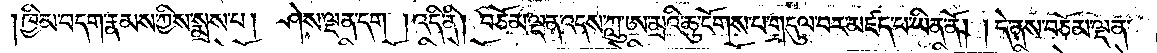ཁྱིམ་བདག་རྣམས་ཀྱིས་སྨྲས་པ། ཤེས་ལྡན་དག །འདི་ནི། བཅོམ་ལྡན་འདས་ཀླུ་ཨ་མྲའི་ཆུ་ངོགས་པ་གདུལ་བར་མཛད་པ་ཡིན་ནོ། །དེ་ནས་བཅོམ་ལྡན་
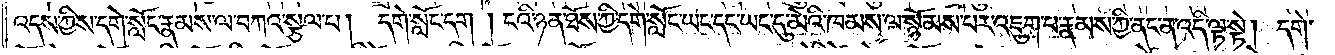འདས་ཀྱིས་དགེ་སློང་རྣམས་ལ་བཀའ་སྩལ་པ། དགེ་སློང་དག །ངའི་ཉན་ཐོས་ཀྱི་དགེ་སློང་ཡང་དང་ཡང་དུ་མེའི་ཁམས་ལ་སྙོམས་པར་འཇུག་པ་རྣམས་ཀྱི་ནང་ན་འདི་ལྟ་སྟེ། དགེ་
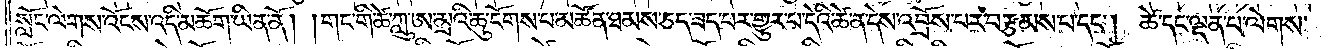སློང་ལེགས་འོངས་འདི་མཆོག་ཡིན་ནོ། །གང་གི་ཆེ་ཀླུ་ཨ་མྲའི་ཆུ་ངོགས་པ་མཚོན་ཐམས་ཅད་ཟད་པར་གྱུར་པ་དེའི་ཚེ་ན་དེས་འབྲོས་པར་བརྩམས་པ་དང༌། ཚེ་དང་ལྡན་པ་ལེགས་
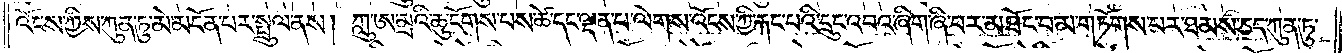འོངས་ཀྱིས་ཀུན་ཏུ་མེ་མངོན་པར་སྤྲུལ་ནས། ཀླུ་ཨ་མྲའི་ཆུ་ངོགས་པས་ཚེ་དང་ལྡན་པ་ལེགས་འོངས་ཀྱི་རྐང་པའི་དྲུང་འབའ་ཞིག་ཞི་བར་མཐོང་བ་མ་གཏོགས་པར་ཐམས་ཅད་ཀུན་ཏུ་
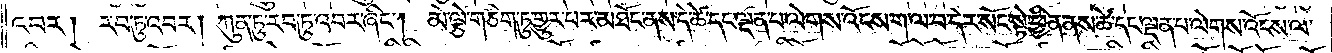འབར། རབ་ཏུ་འབར། ཀུན་ཏུ་རབ་ཏུ་འབར་ཞིང༌། མེ་ལྕེ་གཅིག་ཏུ་གྱུར་བར་མཐོང་ནས་དེ་ཚེ་དང་ལྡན་པ་ལེགས་འོངས་ག་ལ་བ་དེར་སོང་སྟེ་ཕྱིན་ནས་ཚེ་དང་ལྡན་པ་ལེགས་འོངས་ལ་
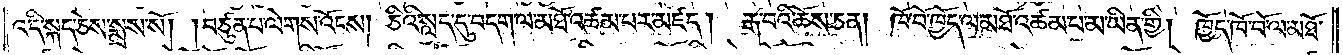འདི་སྐད་ཅེས་སྨྲས་སོ། །བཙུན་པ་ལེགས་འོངས། ཅིའི་སླད་དུ་བདག་ལ་མཐོ་འཚམ་པར་མཛད། རྒ་བའི་ཆས་ཅན། ཁོ་བོ་ཁྱོད་ལ་མཐོ་འཚམ་པ་མ་ཡིན་གྱི། ཁྱོད་ཁོ་བོ་ལ་མཐོ་
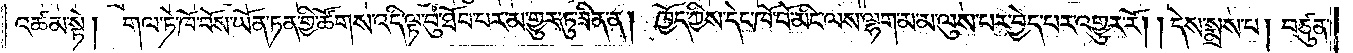འཚམ་སྟེ།   གལ་ཏེ་ཁོ་བོས་ཡོན་ཏན་གྱི་ཚོགས་འདི་ལྟ་བུ་ཐོབ་པར་མ་གྱུར་ཏུ་ཟིན་ན། ཁྱོད་ཀྱིས་དེང་ཁོ་བོ་མིང་ལས་ལྷག་མ་མ་ལུས་པར་བྱེད་པར་འགྱུར་རོ། །དེས་སྨྲས་པ། བཙུན་
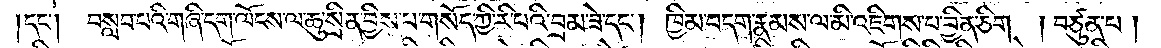དང༌། བསླབ་པའི་གཞི་དག་ལོངས་ལ་ཆུ་སྲིན་བྱིས་པ་གསོད་ཀྱི་རི་བའི་བྲམ་ཟེ་དང༌། ཁྱིམ་བདག་རྣམས་ལ་མི་འཇིགས་པ་བྱིན་ཅིག །བཙུན་པ།
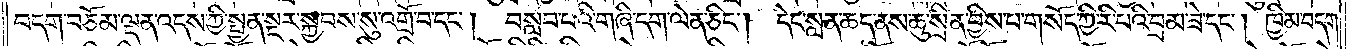བདག་བཅོམ་ལྡན་འདས་ཀྱི་སྤྱན་སྔར་སྐྱབས་སུ་འགྲོ་བ་དང༌། བསླབ་པའི་གཞི་དག་ལེན་ཅིང༌། དེང་སླན་ཆད་ནས་ཆུ་སྲིན་བྱིས་པ་གསོད་ཀྱི་རི་པའི་བྲམ་ཟེ་དང༌། ཁྱིམ་བདག་
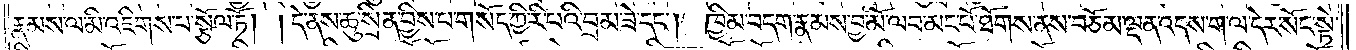རྣམས་ལ་མི་འཇིགས་པ་སྩོལ་ཏོ། །དེ་ནས་ཆུ་སྲིན་བྱིས་པ་གསོད་ཀྱི་རི་པའི་བྲམ་ཟེ་དང༌། ཁྱིམ་བདག་རྣམས་བྱ་མོ་ལབ་མང་པོ་ཐོགས་ནས་བཅོམ་ལྡན་འདས་ག་ལ་དེར་སོང་སྟེ་
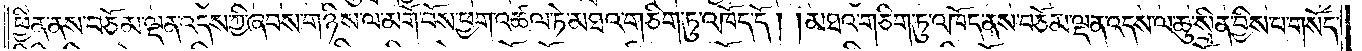ཕྱིན་ནས་བཅོམ་ལྡན་འདས་ཀྱི་ཞབས་གཉིས་ལ་མགོ་བོས་ཕྱག་འཚལ་ཏེ་མཐའ་གཅིག་ཏུ་འཁོད་དོ། །མཐའ་གཅིག་ཏུ་འཁོད་ནས་བཅོམ་ལྡན་འདས་ལ་ཆུ་སྲིན་བྱིས་པ་གསོད་
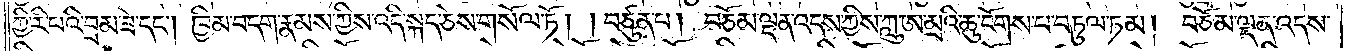ཀྱི་རི་པའི་བྲམ་ཟེ་དང༌། ཁྱིམ་བདག་རྣམས་ཀྱིས་འདི་སྐད་ཅེས་གསོལ་ཏོ། །བཙུན་པ། བཅོམ་ལྡན་འདས་ཀྱིས་ཀླུ་ཨ་མྲའི་ཆུ་ངོགས་པ་བཏུལ་ཏམ། བཅོམ་ལྡན་འདས་
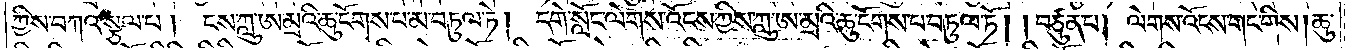ཀྱིས་བཀའ་སྩལ་པ། ངས་ཀླུ་ཨ་མྲའི་ཆུ་ངོགས་པ་མ་བཏུལ་ཏེ། དགེ་སློང་ལེགས་འོངས་ཀྱིས་ཀླུ་ཨ་མྲའི་ཆུ་ངོགས་པ་བཏུལ་ཏོ། །བཙུན་པ། ལེགས་འོངས་གང་གིས། ཆུ་
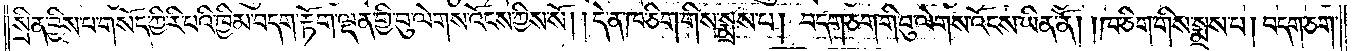སྲིན་བྱིས་པ་གསོད་ཀྱི་རི་བའི་ཁྱིམ་བདག་རྟོག་ལྡན་གྱི་བུ་ལེགས་འོངས་ཀྱིས་སོ། །དེ་ན་ཁ་ཅིག་གིས་སྨྲས་པ། བདག་ཅག་གི་བུ་ལེགས་འོངས་ཡིན་ནོ། །ཁ་ཅིག་གིས་སྨྲས་པ། བདག་ཅག་
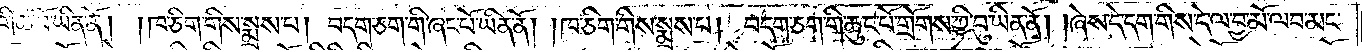གི་ཚ་བོ་ཡིན་ནོ། །ཁ་ཅིག་གིས་སྨྲས་པ། བདག་ཅག་གི་ཞང་པོ་ཡིན་ནོ། །ཁ་ཅིག་གིས་སྨྲས་པ། བདག་ཅག་གི་ཆུང་པོ་གྲོགས་ཀྱི་བུ་ཡིན་ནོ། །ཞེས་དེ་དག་གིས་དེ་ལ་བྱ་མོ་ལབ་མང་
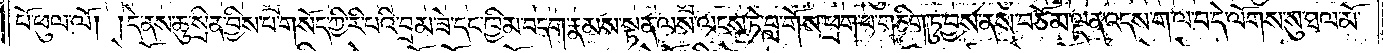པོ་ཕུལ་ལོ། །དེ་ནས་ཆུ་སྲིན་བྱིས་པ་གསོད་ཀྱི་རི་པའི་བྲམ་ཟེ་དང་ཁྱིམ་བདག་རྣམས་སྟན་ལས་ལངས་ཏེ་བླ་གོས་ཕྲག་པ་གཅིག་ཏུ་བྱས་ནས་བཅོམ་ལྡན་འདས་ག་ལ་བ་དེ་ལོགས་སུ་ཐལ་མོ་
